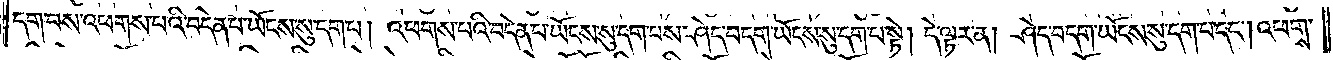དག་པས་འཕགས་པའི་བདེན་པ་ཡོངས་སུ་དག་པ། འཕགས་པའི་བདེན་པ་ཡོངས་སུ་དག་པས་ཤེད་བདག་ཡོངས་སུ་དག་པ་སྟེ། དེ་ལྟར་ན། ཤེད་བདག་ཡོངས་སུ་དག་པ་དང༌། འཕགས་
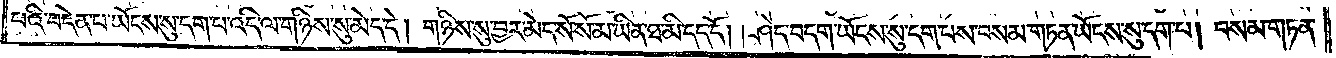པའི་བདེན་པ་ཡོངས་སུ་དག་པ་འདི་ལ་གཉིས་སུ་མེད་དེ། གཉིས་སུ་བྱར་མེད་སོ་སོ་མ་ཡིན་ཐ་མི་དད་དོ། །ཤེད་བདག་ཡོངས་སུ་དག་པས་བསམ་གཏན་ཡོངས་སུ་དག་པ། བསམ་གཏན་
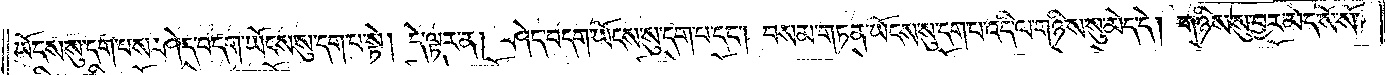ཡོངས་སུ་དག་པས་ཤེད་བདག་ཡོངས་སུ་དག་པ་སྟེ། དེ་ལྟར་ན། ཤེད་བདག་ཡོངས་སུ་དག་པ་དང༌། བསམ་གཏན་ཡོངས་སུ་དག་པ་འདི་ལ་གཉིས་སུ་མེད་དེ། གཉིས་སུ་བྱར་མེད་སོ་སོ་
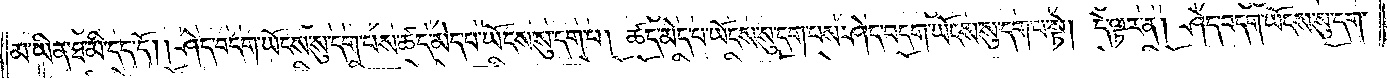མ་ཡིན་ཐ་མི་དད་དོ། །ཤེད་བདག་ཡོངས་སུ་དག་པས་ཚད་མེད་པ་ཡོངས་སུ་དག་པ། ཚད་མེད་པ་ཡོངས་སུ་དག་པས་ཤེད་བདག་ཡོངས་སུ་དག་པ་སྟེ། དེ་ལྟར་ན། ཤེད་བདག་ཡོངས་སུ་དག་
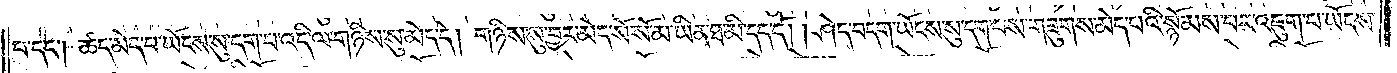པ་དང༌། ཚད་མེད་པ་ཡོངས་སུ་དག་པ་འདི་ལ་གཉིས་སུ་མེད་དེ། གཉིས་སུ་བྱར་མེད་སོ་སོ་མ་ཡིན་ཐ་མི་དད་དོ། །ཤེད་བདག་ཡོངས་སུ་དག་པས་གཟུགས་མེད་པའི་སྙོམས་པར་འཇུག་པ་ཡོངས་
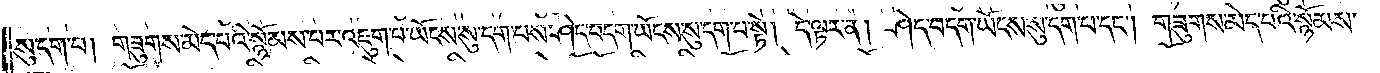སུ་དག་པ། གཟུགས་མེད་པའི་སྙོམས་པར་འཇུག་པ་ཡོངས་སུ་དག་པས་ཤེད་བདག་ཡོངས་སུ་དག་པ་སྟེ། དེ་ལྟར་ན། ཤེད་བདག་ཡོངས་སུ་དག་པ་དང༌། གཟུགས་མེད་པའི་སྙོམས་
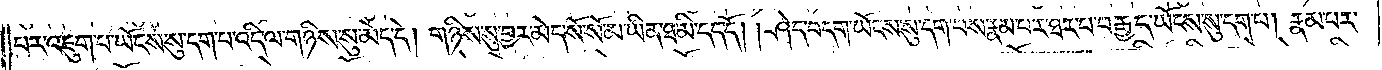པར་འཇུག་པ་ཡོངས་སུ་དག་པ་འདི་ལ་གཉིས་སུ་མེད་དེ། གཉིས་སུ་བྱར་མེད་སོ་སོ་མ་ཡིན་ཐ་མི་དད་དོ། །ཤེད་བདག་ཡོངས་སུ་དག་པས་རྣམ་པར་ཐར་པ་བརྒྱད་ཡོངས་སུ་དག་པ། རྣམ་པར་
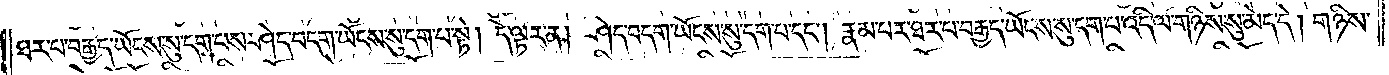ཐར་པ་བརྒྱད་ཡོངས་སུ་དག་པས་ཤེད་བདག་ཡོངས་སུ་དག་པ་སྟེ། དེ་ལྟར་ན། ཤེད་བདག་ཡོངས་སུ་དག་པ་དང༌། རྣམ་པར་ཐར་པ་བརྒྱད་ཡོངས་སུ་དག་པ་འདི་ལ་གཉིས་སུ་མེད་དེ། གཉིས་
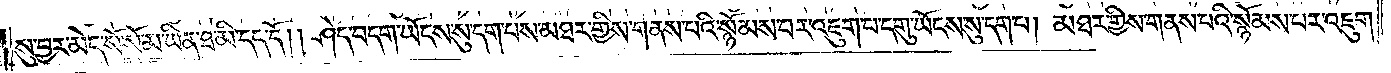སུ་བྱར་མེད་སོ་སོ་མ་ཡིན་ཐ་མི་དད་དོ། །ཤེད་བདག་ཡོངས་སུ་དག་པས་མཐར་གྱིས་གནས་པའི་སྙོམས་པར་འཇུག་པ་དགུ་ཡོངས་སུ་དག་པ། མཐར་གྱིས་གནས་པའི་སྙོམས་པར་འཇུག་
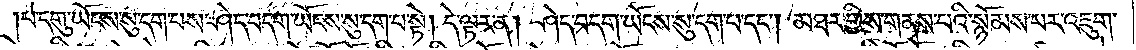པ་དགུ་ཡོངས་སུ་དག་པས་ཤེད་བདག་ཡོངས་སུ་དག་པ་སྟེ། དེ་ལྟར་ན། ཤེད་བདག་ཡོངས་སུ་དག་པ་དང༌། མཐར་གྱིས་གནས་པའི་སྙོམས་པར་འཇུག་
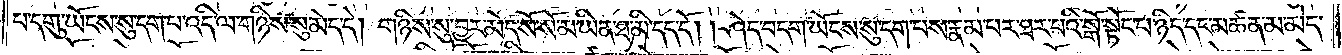པ་དགུ་ཡོངས་སུ་དག་པ་འདི་ལ་གཉིས་སུ་མེད་དེ། གཉིས་སུ་བྱར་མེད་སོ་སོ་མ་ཡིན་ཐ་མི་དད་དོ། །ཤེད་བདག་ཡོངས་སུ་དག་པས་རྣམ་པར་ཐར་པའི་སྒོ་སྟོང་པ་ཉིད་དང་མཚན་མ་མེད་
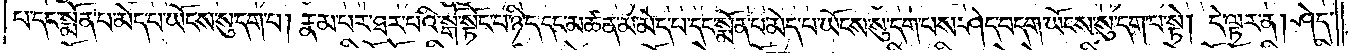པ་དང་སྨོན་པ་མེད་པ་ཡོངས་སུ་དག་པ། རྣམ་པར་ཐར་པའི་སྒོ་སྟོང་པ་ཉིད་དང་མཚན་མ་མེད་པ་དང་སྨོན་པ་མེད་པ་ཡོངས་སུ་དག་པས་ཤེད་བདག་ཡོངས་སུ་དག་པ་སྟེ། དེ་ལྟར་ན། ཤེད་
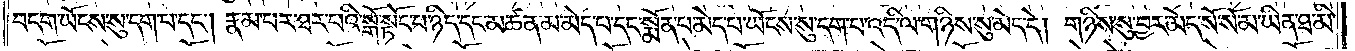བདག་ཡོངས་སུ་དག་པ་དང༌། རྣམ་པར་ཐར་པའི་སྒོ་སྟོང་པ་ཉིད་དང་མཚན་མ་མེད་པ་དང་སྨོན་པ་མེད་པ་ཡོངས་སུ་དག་པ་འདི་ལ་གཉིས་སུ་མེད་དེ། གཉིས་སུ་བྱར་མེད་སོ་སོ་མ་ཡིན་ཐ་མི་
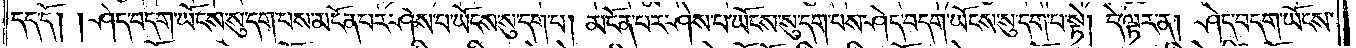དད་དོ། །ཤེད་བདག་ཡོངས་སུ་དག་པས་མངོན་པར་ཤེས་པ་ཡོངས་སུ་དག་པ། མངོན་པར་ཤེས་པ་ཡོངས་སུ་དག་པས་ཤེད་བདག་ཡོངས་སུ་དག་པ་སྟེ། དེ་ལྟར་ན། ཤེད་བདག་ཡོངས་
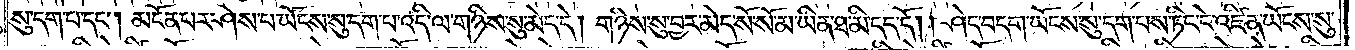སུ་དག་པ་དང༌། མངོན་པར་ཤེས་པ་ཡོངས་སུ་དག་པ་འདི་ལ་གཉིས་སུ་མེད་དེ། གཉིས་སུ་བྱར་མེད་སོ་སོ་མ་ཡིན་ཐ་མི་དད་དོ། །ཤེད་བདག་ཡོངས་སུ་དག་པས་ཏིང་ངེ་འཛིན་ཡོངས་སུ་
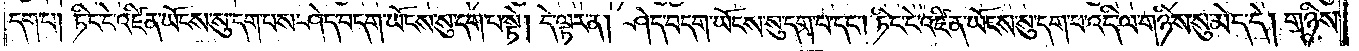དག་པ། ཏིང་ངེ་འཛིན་ཡོངས་སུ་དག་པས་ཤེད་བདག་ཡོངས་སུ་དག་པ་སྟེ། དེ་ལྟར་ན། ཤེད་བདག་ཡོངས་སུ་དག་པ་དང༌། ཏིང་ངེ་འཛིན་ཡོངས་སུ་དག་པ་འདི་ལ་གཉིས་སུ་མེད་དེ། གཉིས་
